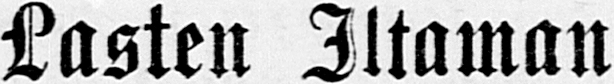Lasten Iltaman
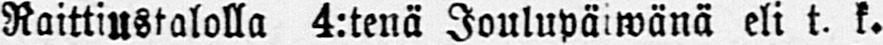Raittiustalolla 4:tenä Joulupäiwänä eli t. k.
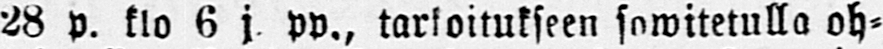28 p. klo 6 j. pp., tarkoitukseen sowitetulla oh-
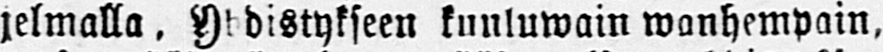jelmalla, Yhdistykseen kunluwain wanhempain,
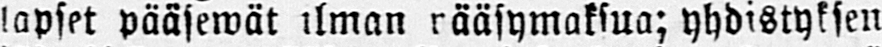lapset pääsewät ilman rääsymaksua; yhdistyksen
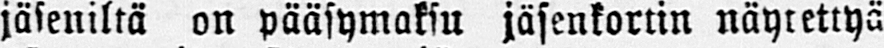jäseniltä on pääsymaksu jäsenkortin näytettyä
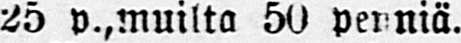25 p.,muilta 50 penniä.
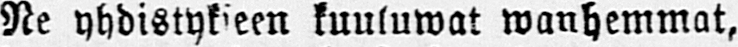Ne yhdistykseen kuuluwat wanhemmat, jotka
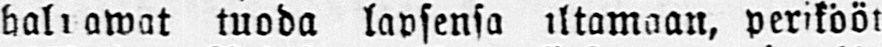hal awat tuoda lapsensa iltamaan, perikööt
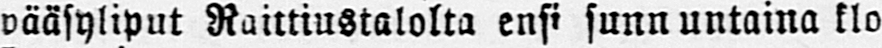pääsyliput Raittiustalolta ensi sunn untaina klo
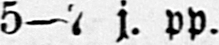5—7 j. pp.
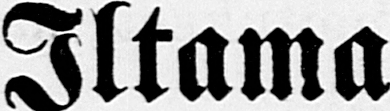Iltama
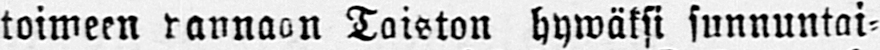toimeen rannaon Taiston hywäksi sunnuntai-
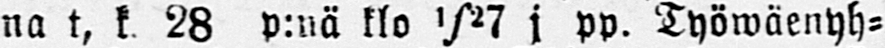na t, k. 28 p:nä klo 1ʃ27 j pp. Työwäenyh-
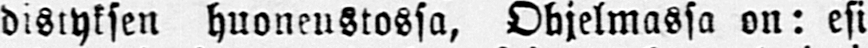distyksen huoneustossa, Ohjelmassa on: esi-
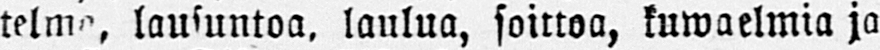telmä, lausuntoa, laulua, soittoa, kuwaelmia ja
